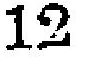12
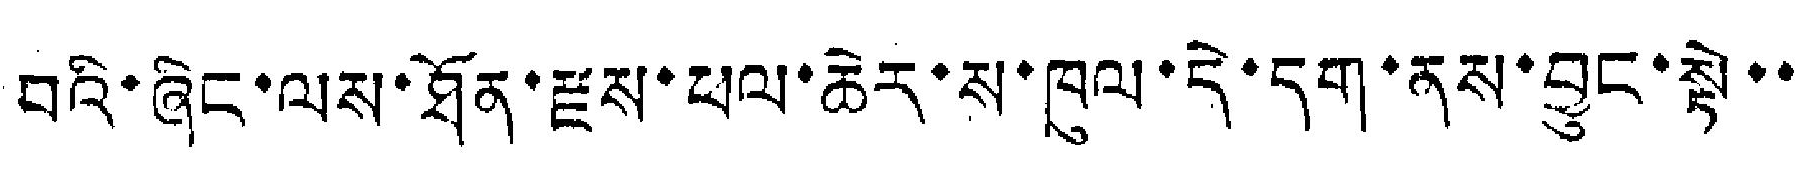བའི་ཞིང་ལས་ཐོན་རྫས་ཕལ་ཆེར་ས་ཁུལ་དེ་དག་ནས་བྱུང་སྟེ་་
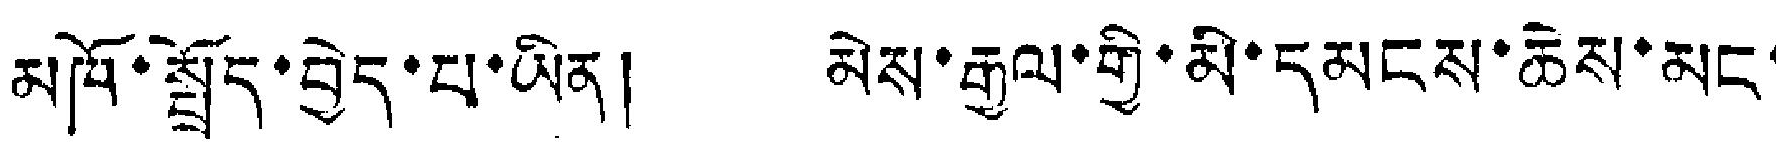མཁོ་སྤྲོད་བྱེད་པ་ཡིན། མེས་རྒྱལ་གྱི་མི་དམངས་ཆེས་མང་
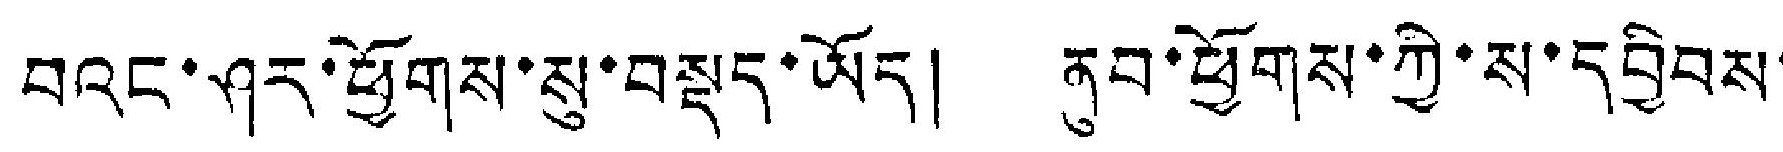བའང་ཤར་ཕྱོགས་སུ་བསྡད་ཡོད། ནུབ་ཕྱོགས་ཀྱི་ས་དབྱིབས་
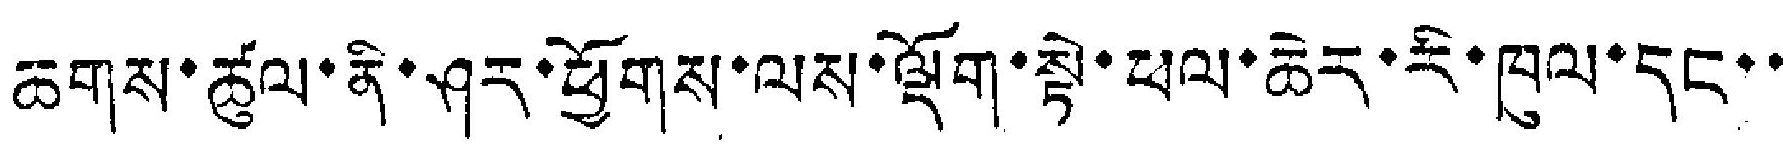ཆགས་ཚུལ་ནི་ཤར་ཕྱོགས་ལས་ལྡོག་སྟེ་ཕལ་ཆེར་རི་ཁུལ་དང་་
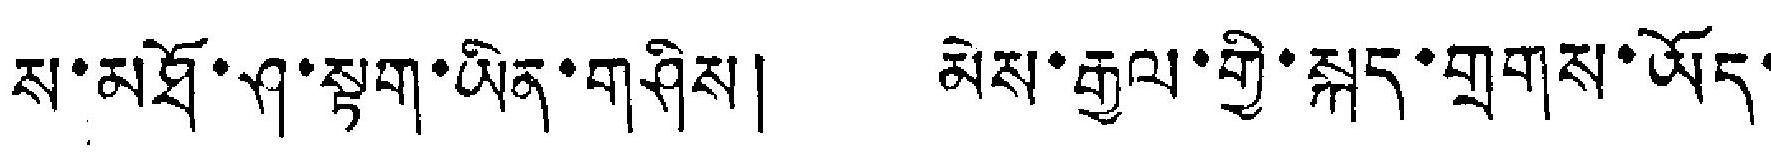ས་མཐོ་ཤ་སྟག་ཡིན་གཤིས། མེས་རྒྱལ་གྱི་སྐད་གྲགས་ཡོད་
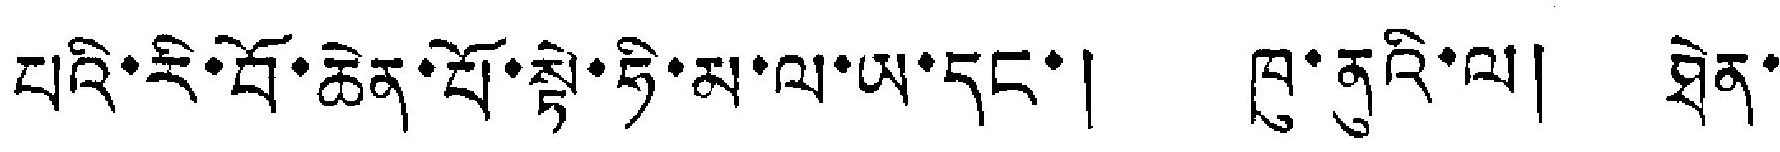པའི་རི་བོ་ཆེན་པོ་སྟེ་ཧི་མ་ལ་ཡ་དང་། ཁུ་ནུའི་ལ། ཐེན་
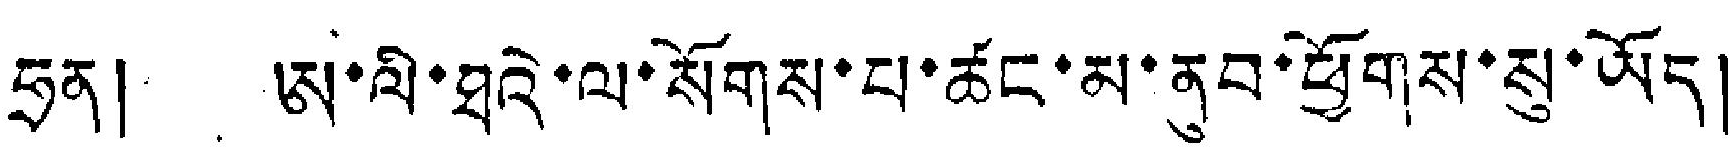ཧྲན། ཨ་ལི་ཐའེ་ལ་སོགས་པ་ཚང་མ་ནུབ་ཕྱོགས་སུ་ཡོད།
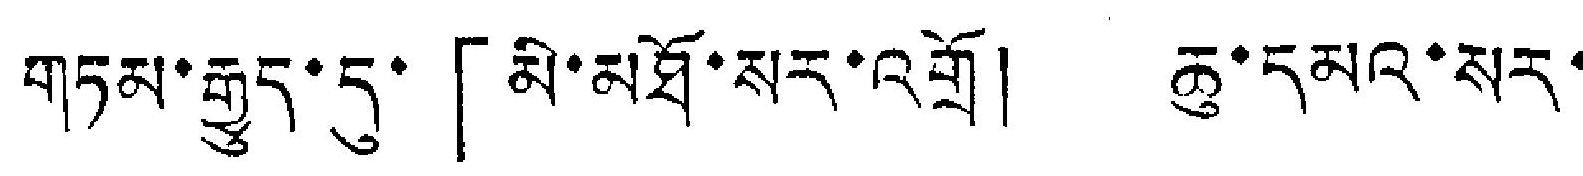གཏམ་རྒྱུད་དུ་「མི་མཐོ་སར་འགྲོ། ཆུ་དམའ་སར་
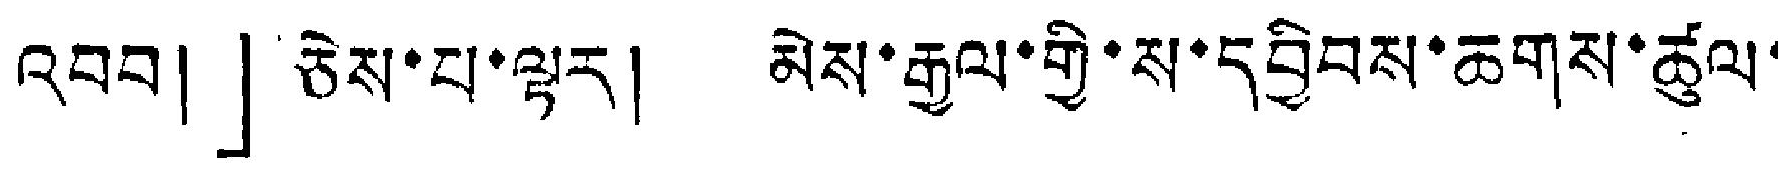འབབ།」ཅེས་པ་ལྟར། མེས་རྒྱལ་གྱི་ས་དབྱིབས་ཆགས་ཚུལ་
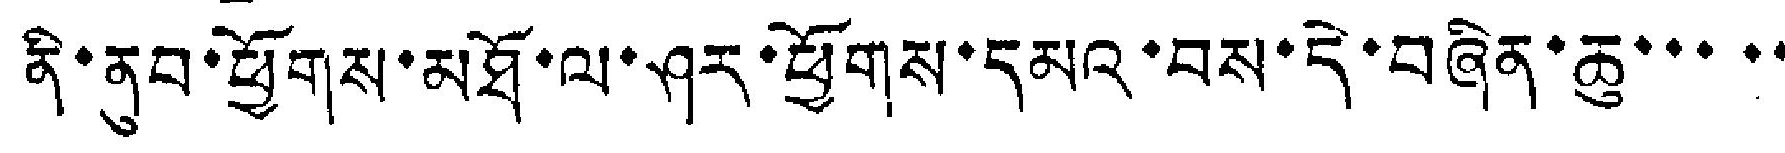ནི་ནུབ་ཕྱོགས་མཐོ་ལ་ཤར་ཕྱོགས་དམའ་བས་དེ་བཞིན་ཆུ་་་་་
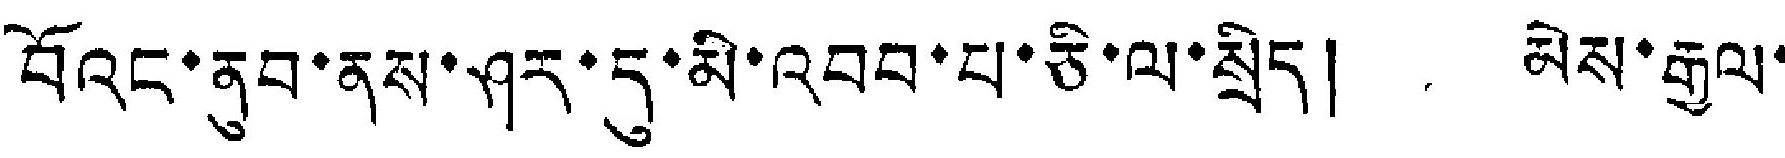བོའང་ནུབ་ནས་ཤར་དུ་མི་འབབ་པ་ཅི་ལ་སྲིད། མེས་རྒྱལ་
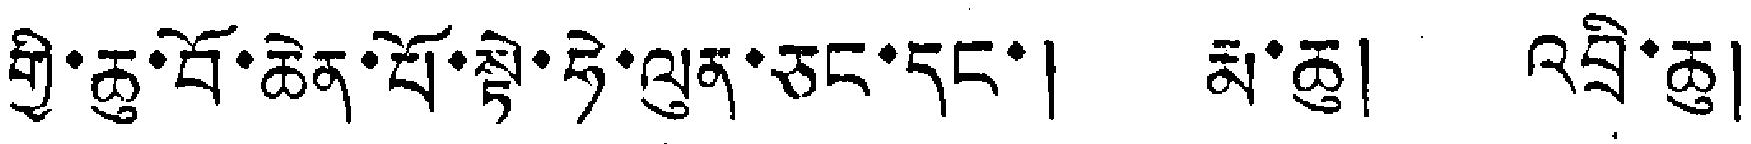གྱི་ཆུ་བོ་ཆེན་པོ་སྟེ་ཧེ་ལུན་ཅང་དང་། རྨ་ཆུ། འབྲི་ཆུ།
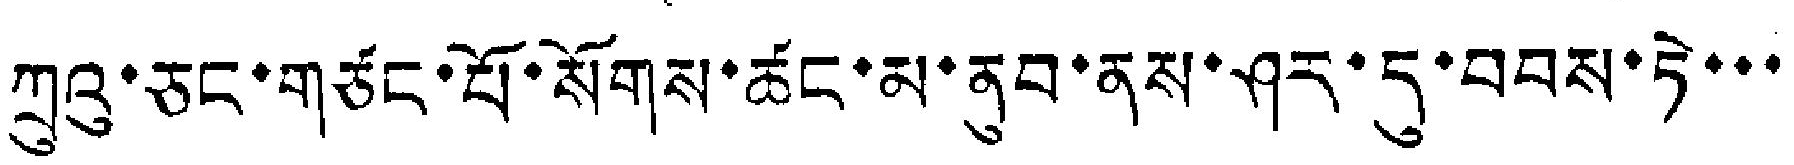ཀྲུའུ་ཅང་གཅང་པོ་སོགས་ཚང་མ་ནུབ་ནས་ཤར་དུ་བབས་ཏེ་་་
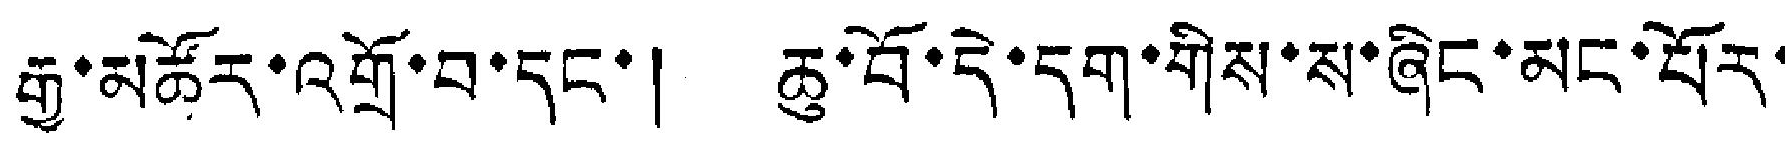རྒྱ་མཚོར་འགྲོ་བ་དང་། ཆུ་བོ་དེ་དག་གིས་ས་ཞིང་མང་པོར་
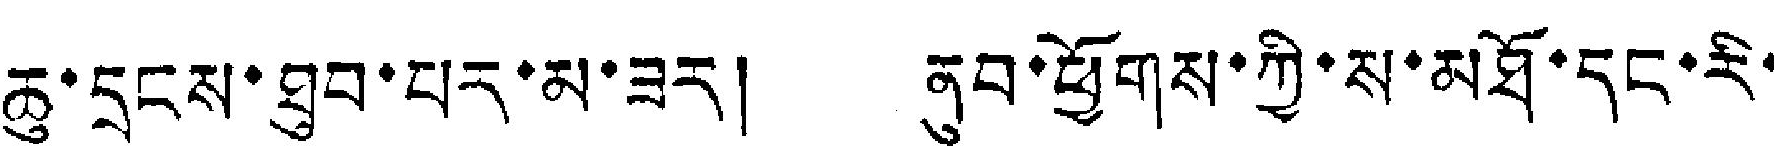ཆུ་དྲངས་ཐུབ་པར་མ་ཟར། ནུབ་ཕྱོགས་ཀྱི་ས་མཐོ་དང་རི་
